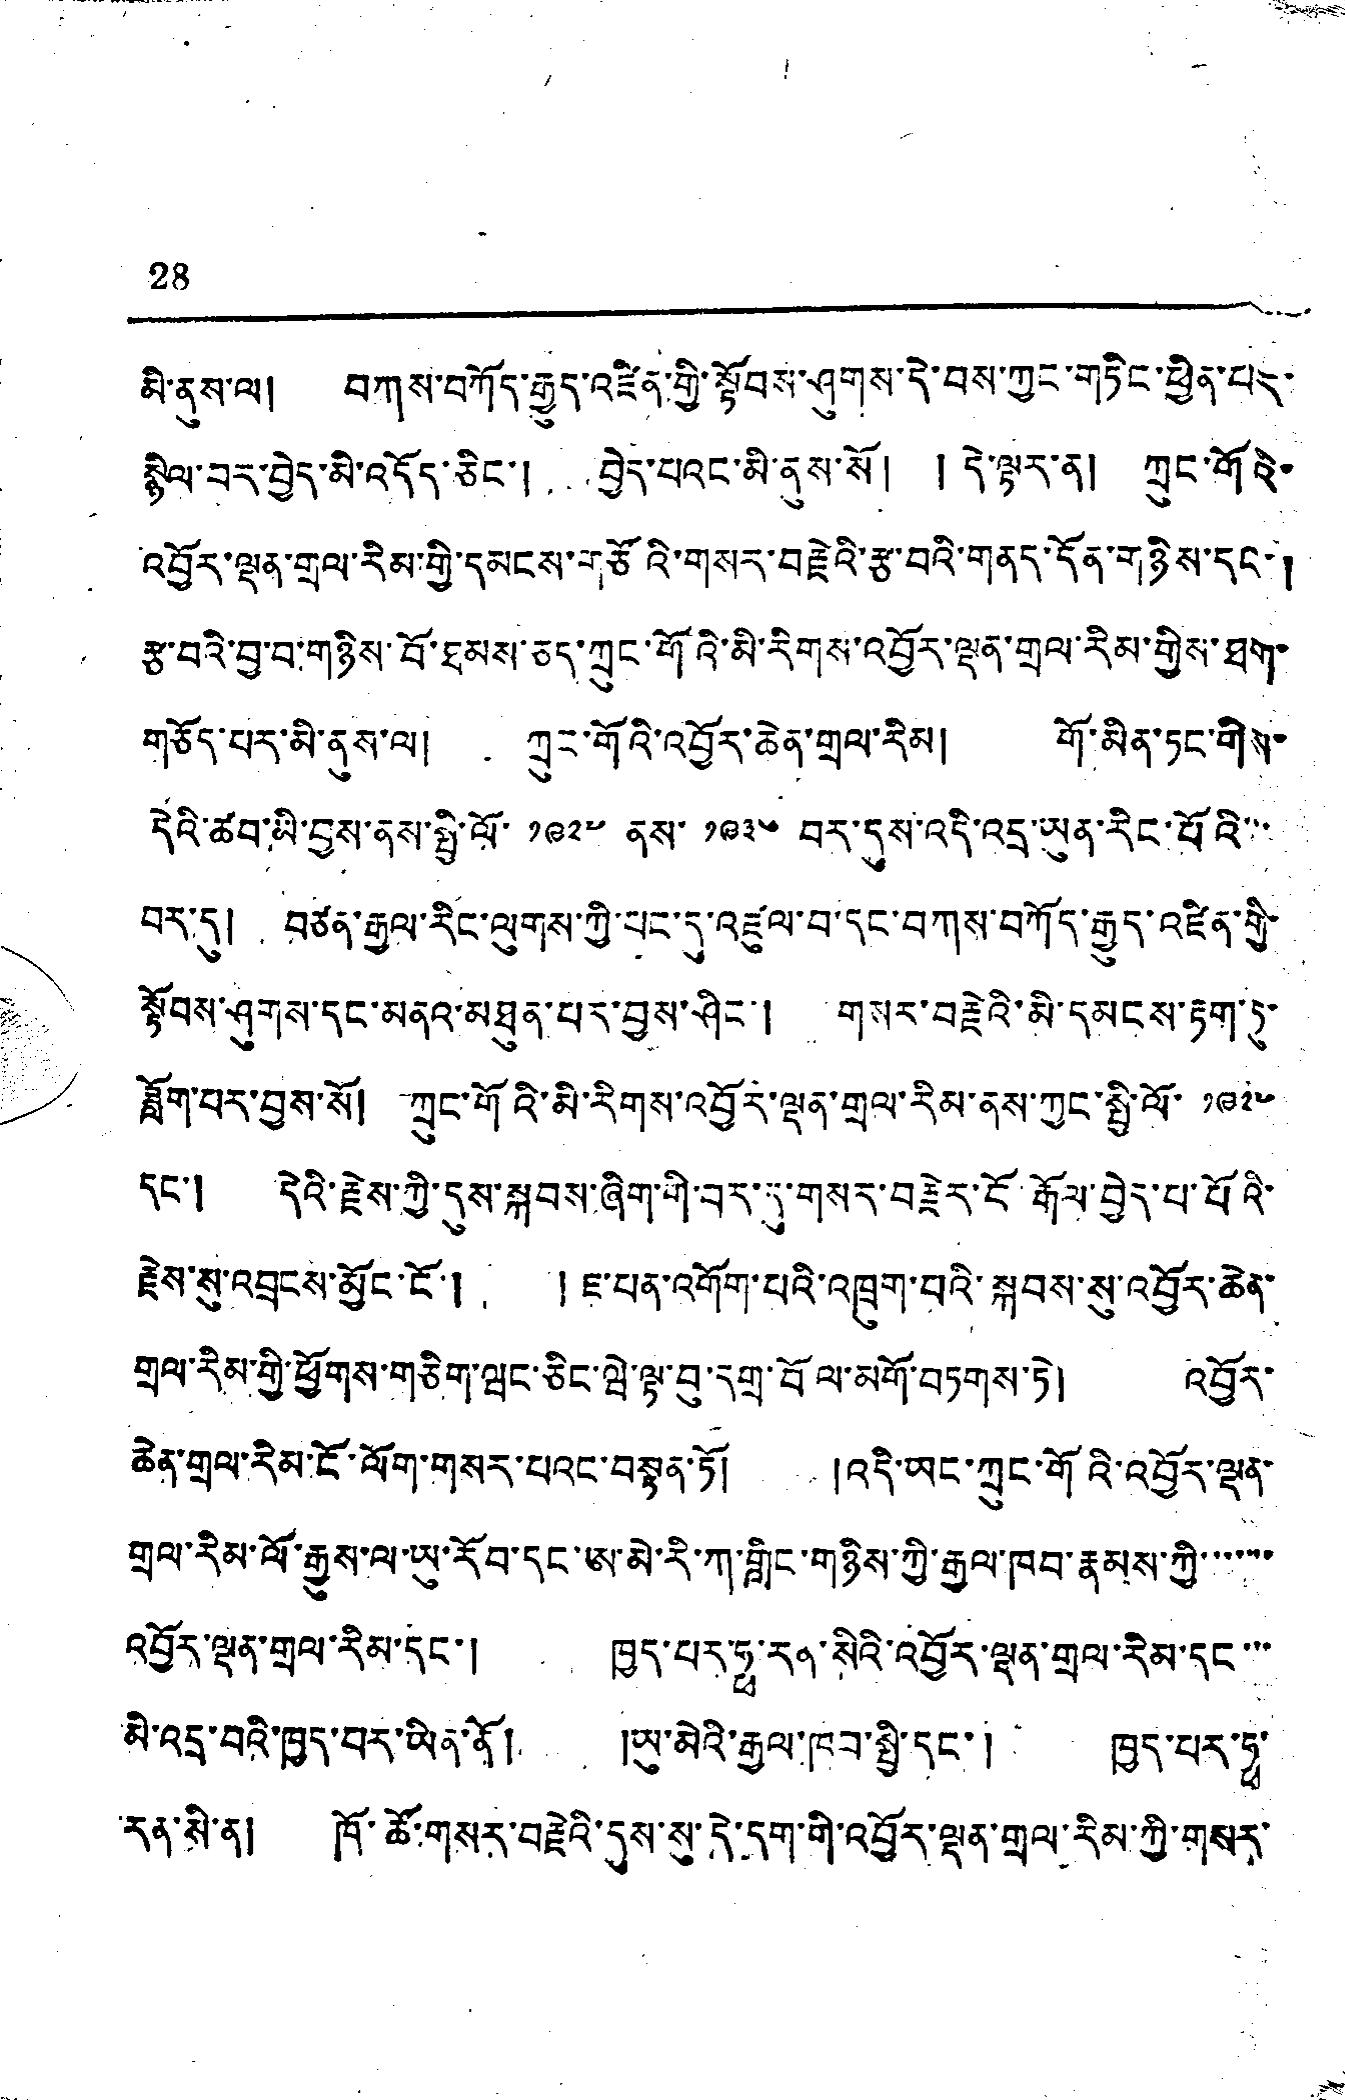28
མི་ནུས་ལ། བཀས་བཀོད་རྒྱུད་འཛིན་གྱི་སྟོབས་ཤུགས་དེ་བས་ཀྱང་གཏིང་ཕྱིན་པར་
སྙིལ་བར་བྱེད་མི་འདོད་ཅིང་། བྱེད་པའང་མི་ནུས་སོ། ། དེ་ལྟར་ན། ཀྲུང་གོའི་
འབྱོར་ལྡན་གྲལ་རིམ་གྱི་དམངས་གཙོའི་གསར་བརྗེའི་རྩ་བའི་གནད་དོན་གཉིས་དང་།
རྩ་བའི་བྱ་བ་གཉིས་བོ་ཐམས་ཅད་ཀྲུང་གོའི་མི་རིགས་འབྱོར་ལྡན་གྲལ་རིམ་གྱིས་ཐག་
གཅོད་པར་མི་ནུས་ལ། ཀྲུང་གོའི་འབྱོར་ཆེན་གྲལ་རིམ། གོ་མིན་ཏང་གིས་
དེའི་ཚབ་མི་བྱས་ནས་སྤྱི་ལོ་ ༡༩༢༧ ནས་ ༡༩༣༦ བར་དུས་འདི་འདྲ་ཡུན་རིང་པོའི་་་
བར་དུ། བཙན་རྒྱལ་རིང་ལུགས་ཀྱི་པང་དུ་འཛུལ་བ་དང་བཀས་བཀོད་རྒྱུད་འཛིན་གྱི་
སྟོབས་ཤུགས་དང་མནའ་མཐུན་པར་བྱས་ཤིང་། གསར་བརྗེའི་མི་དམངས་རྟག་ཏུ་
ཟློག་པར་བྱས་སོ། ཀྲུང་གོའི་མི་རིགས་འབྱོར་ལྡན་གྲལ་རིམ་ནས་ཀྱང་སྤྱི་ལོ་ ༡༩༢༧
དང་། དེའི་རྗེས་ཀྱི་དུས་སྐབས་ཞིག་གི་བར་དུ་གསར་བརྗེར་ངོ་རྒོལ་བྱེད་པ་པོའི་
རྗེས་སུ་འབྲངས་མྱོང་ངོ་། །ཇ་པན་འགོག་པའི་འཁྲུག་པའི་སྐབས་སུ་འབྱོར་ཆེན་
གྲལ་རིམ་གྱི་ཕྱོགས་གཅིག་ཝང་ཅིང་ཝེ་ལྟ་བུ་དགྲ་བོལ་མགོ་བཏགས་ཏེ། འབྱོར་
ཆེན་གྲལ་རིམ་ངོ་ལོག་གསར་པའང་བསྟུན་ཏོ། །འདི་ཡང་ཀྲུང་གོའི་འབྱོར་ལྡན་
གྲལ་རིམ་ལོ་རྒྱུས་ལ་ཡུ་རོབ་དང་ཨ་མེ་རི་ཀ་གླིང་གཉིས་ཀྱི་རྒྱལ་ཁབ་རྣམས་ཀྱི་་་་་་
འབྱོར་ལྡན་གྲལ་རིམ་དང་། ཁྱད་པར་ཧྥ་རན་སིའི་འབྱོར་ལྡན་གྲལ་རིམ་དང་་་
མི་འདྲ་བའི་ཁྱད་བར་ཡིན་ནོ། །ཡུ་མེའི་རྒྱལ་ཁབ་སྤྱི་དང་། ཁྱད་པར་ཧྥ་
རན་སི་ན། ཁོ་ཚོ་གསར་བརྗེའི་དུས་སུ་དེ་དག་གི་འབྱོར་ལྡན་གྲལ་རིམ་ཀྱི་གསར་
